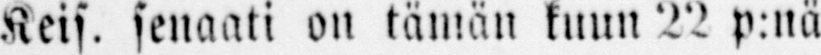Keis. senaati on tämän kuun 22 p:nä
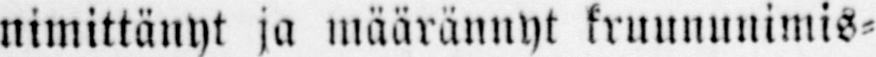nimittänyt ja määrännyt kruununimis-
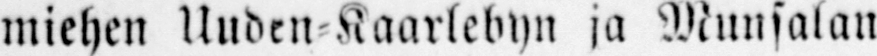miehen Uuden-Kaarlebyn ja Munsalan
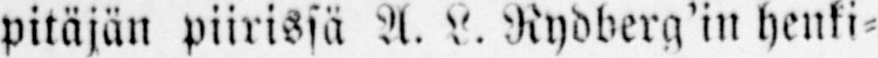pitäjän piirissä A. L. Rydberg’in henki-
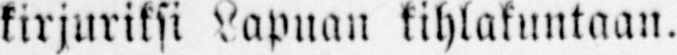kirjuriksi Lapuan kihlakuntaan.
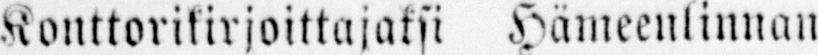Konttorikirjoittajaksi Hämeenlinnan
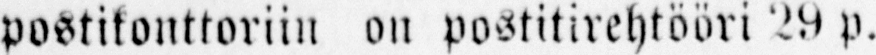postikonttoriin on postitirehtööri 20 p.
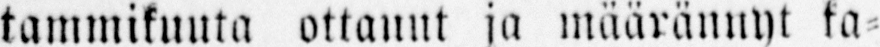tammikuuta ottanut ja määrännyt ka-
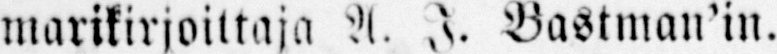marikirjoittaja A. J. Bastman’in.
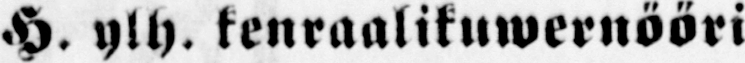— H. ylh. kenraalikuwernööri
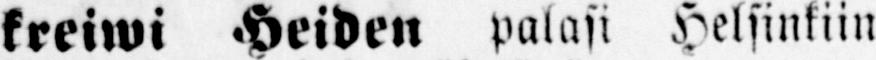kreiwi Heiden palasi Helsinkiin
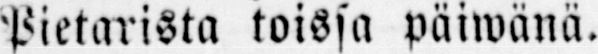Pietarista toissa päiwänä.
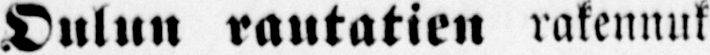— Oulun rautatien rakennuk-
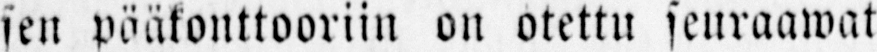sen pääkonttooriin on otettu seuraawat
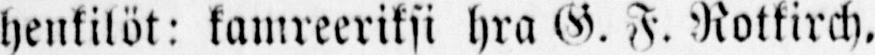henkilöt: kamreeriksi hra G. F. Rotkirch,
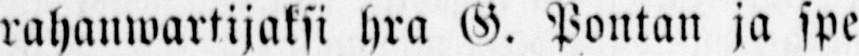rahanwartijaksi hra G. Pontan ja spe-
